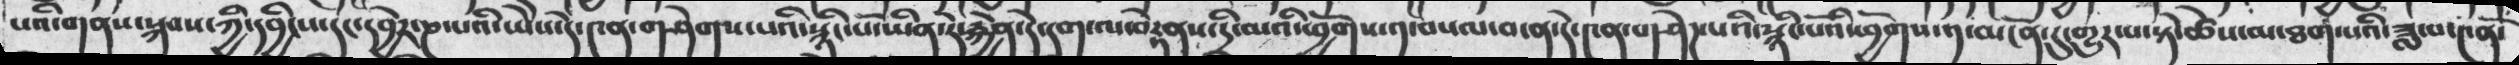པའི་གནས་སྐབས་ཀྱི་དབྱིངས་དང་དབྱེར་ཎ་པའི་ཡེེས་དེ་༤ན་གཤེགས་པའི་སྙིང་པོ་ཡིན་དེ་རྐྱེན་དེ་དག་ལ་བརྟེནས་དྲི་མའི་ཕྱོགས་༡་བསལ་བ་ན་དེ་༤ན་གཤེཌ་པའི་སྙིང་པོའི་ཕྱོགས་༡་མངོན་དུ་གྱུར་པ་སྟེ་ཚེས་མ་ཐག་པའི་ཟླ་བ་༤ནོ་
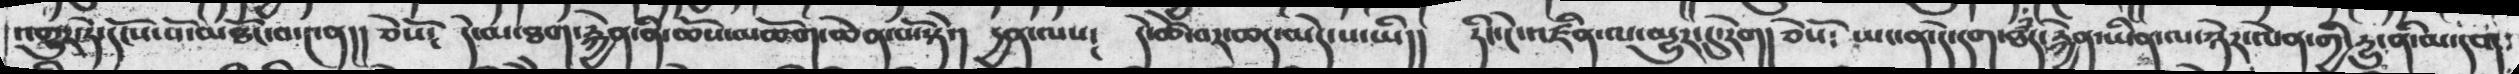འགྱུར་དེ་དངོས་པོ་མཐོང་བ་༤ན།།  ཅེསོ༴  དེ་མ་ཐག་རྐྱེན་ནི་ཆོས་མཆོག་ཆེན་པོ་སྟེ་།  དྱན་ལས༴  དེ་ཚེ་བར་ཆད་མེད་པ་ཡི།།  ཏིང་ངེ་འཛིན་ལ་མྱུར་དུ་རེག།  ཅེསོ༴  ཡང་ན་དེ་དག་ཐཾད་རྐྱེན་ཡིན་ལ་ཉེར་ལེན་གྱི་དྱུ་ནི་མ་དག
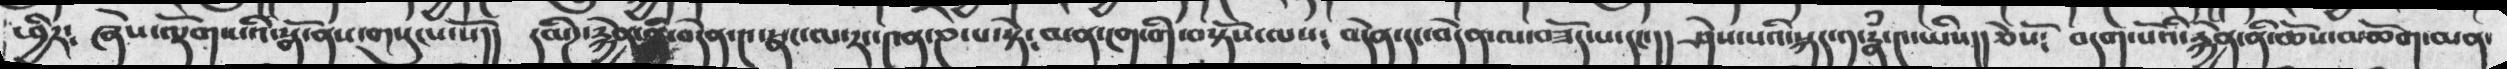ཕྱིར༴   ཞེས་ལྡོག་པའི་སྒོ་ནས་གསུངས་སོ།།  དམིཌ་རྐྱེན་ནི་བདེན་༤་སྣང་ལ་རང་༤ན་ཎ་པ་སྟེ༴  མན་ངག་གི་བསྟོས་ལས༴   བདེན་དང་བདེབ་ལ་བཟོད་པ་དང་།།  ཤེས་པའི་སྐད་༡་རྣཾ་༤་ཡིས།།  ཅེསོ༴  བདག་པོའི་རྐྱེན་ནི་ཆོས་མཆོག་མན་
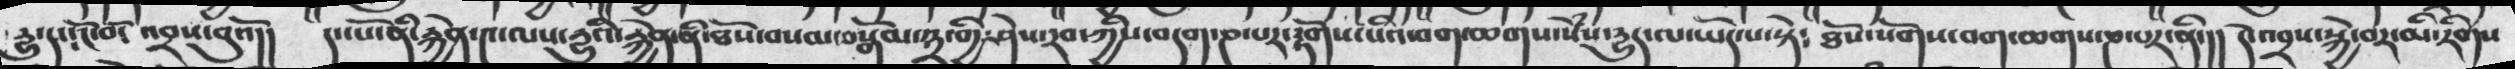དྱུ་དང་ངོ༴བོ་འབྲས་བུའོ།།  དང་པོ་ནི་རྐྱེན་༤་ལས་དྱུའི་རྐྱེན་ནི་ཐོས་བསམ་བསྒོམ་༣་གྱི་ཤེས་རབ་ཀྱིས་བདག་ཎ་པར་རྟོགས་པའི་བག་ཆགས་སེཾས་དྱུད་ལ་ཡོད་པ་སྟེ༴  ཐོས་སོགས་བག་ཆགས་ཎ་པར་ནི་།།  དེ་འབྲས་སྐྱེ་བར་མི་རིགས
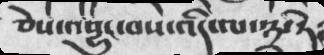ཅེས་འབྱུང་བས་འདི་ལ་༣་ཏེ
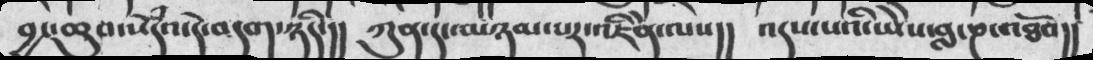བྱང་ཆུབ་སེཾདའ་དེ་བདག་ཉིད་།།  ཀུན་དང་མཉམ་པར་འཇིེན་ལས།།  འདས་པའི་ཡེེས་བླ་ཎ་འཐོབ།།
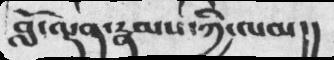བློ་ལྡན་རྣམས་ཀྱི་ལམ།།
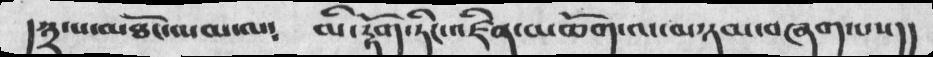།༣་པ་མཐོང་ལམ་ལ༴  མི་རྟོག་ཏིང་འཛིན་མཆོག་ལ་མཉམ་བཞག་པས།།
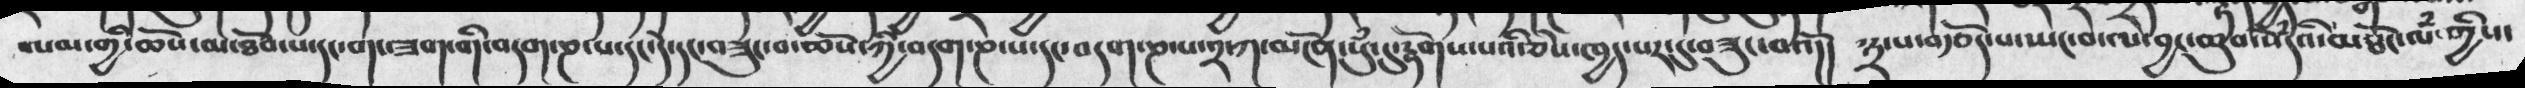བསམ་གྱི་ཆོས་མ་ཐོབ་པ་དང་གང་ཟག་གི་བདག་ཎ་པ་དང་དེ་དང་བཟུང་བ་ཆོས་ཀྱི་བདག་ཎ་༢་ཀ་མངོན་སུཾ་དུ་རྟོགས་པའི་ཅེས་ཁྱད་པར་དུ་བཟུང་བའོ།།  ༣་པ་བརྩོད་པ་སྤང་བ་ལ་བྱང་ཆུབ་སེཾདའི་མཐོང་ལཾ་གྱིས་
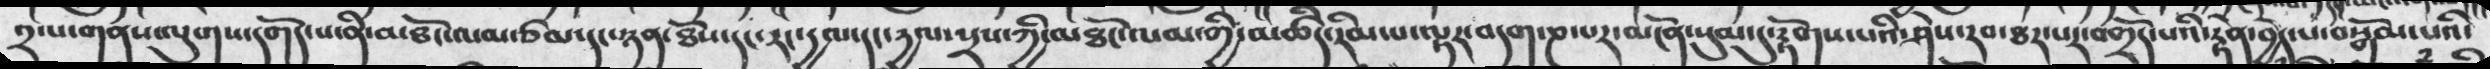༢་པ་གནས་ལུགས་དགོད་པ་ནི་མཐོང་ལམ་ཙམ་དང་ཉན་ཐོས་དང་རང་དྱལ་དང་དྱལ་སྲས་ཀྱི་མཐོང་ལམ་གྱི་མཚིད་རིམ་པ་ལྟར་བདག་ཎ་པར་མངོན་སུམ་དུ་རྟོགས་པའི་ཤེས་རབ་ཐར་པར་བགྲོད་པའི་རྟེན་བྱེད་པ་བསྒོམ་པའི་
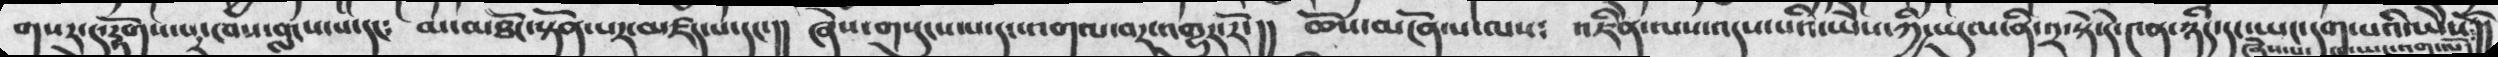གསར་དུ་རྟོགས་པར་ཁ་བླངས་པ་དང༴  མ་མཐོང་སྟོན་པར་མཛད་པ་དང་།།  ཞེས་གསུངས་པ་དང་འགལ་བར་འགྱུར་རོ་།།  ཆོས་མངོན་པ་ལས༴   འཇིེན་ལས་འདས་པའི་ཡེེས་ཀྱི་ཡུལ་ནི་༢་སྟེ་དེ་༤ན་ཉིད་དང་ཡང་དག་པའི་ཡེེས་སོ་ཞེས་པ་ལ་ཡང་འགལོ།།
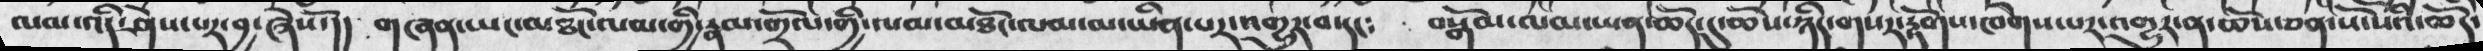ལམ་འདི་ཤེས་པར་བྱ་ཞེསོ་།།  གཞན་ཡང་མཐོང་ལམ་གྱི་རྣམ་གྲོལ་གྱི་ལམ་མཐོང་ལམ་ཡིན་པར་འགྱུར་བ་དང༴  བསྒོམ་ལམ་ཡན་ཆོད་དུ་ཆོས་ཉིད་གསར་རྟོགས་ཁེགས་པར་འགྱུར་ན་ཆོས་ཅན་སོ་སོའི་ཆོད་
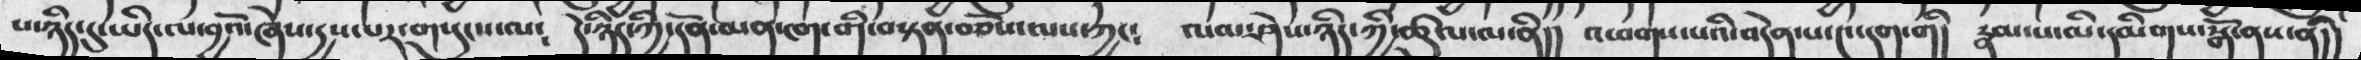པ་ཉིད་དུ་ཡིད་ལ་བྱའོ་ཞེས་དྱས་པར་གསུངས་ལ༴  དེ་ཉིད་ཀྱི་དོན་མན་ངག་གི་བསྟན་བཅོས་ལས་ཀྱང༴ ལམ་ཤེས་ཉིད་ཀྱི་ཚུལ་ལ་ནི།།  འཕགས་པའི་བདེན་པ་༤ན་དག་གི།  རྣམ་པ་མི་དམིགས་སྒོ་ནས་ནི།།
